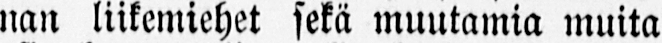nan liikemiehet sekä muutamia muita
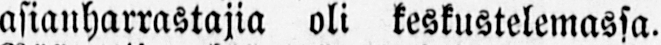asianharrastajia oli keskustelemassa.
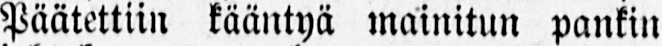Päätettiin kääntyä mainitun pankin
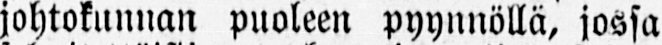johtokunnan puoleen pyynnöllä, jossa
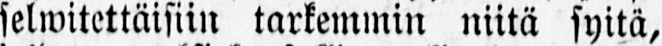selwitettäisiin tarkemmin niitä syitä,
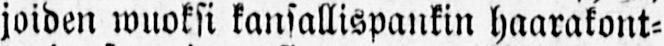joiden wuoksi kansallispankin haarakont-
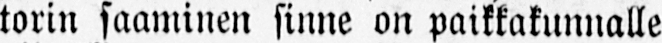torin saaminen sinne on paikkakunnalle
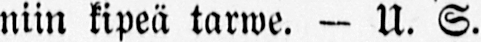niin kipeä tarwe. — U. S.
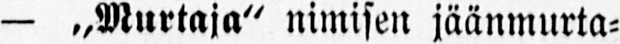— ˶Murtaja" nimisen jäänmurta-
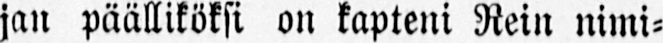jan päälliköksi on kapteni Rein nimi-
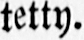tetty.
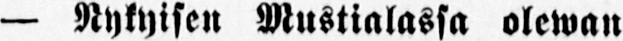— Nykyisen Mustialassa olewan
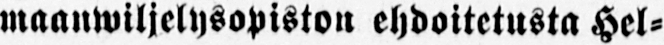maanwiljelysopiston ehdoitetusta Hel-
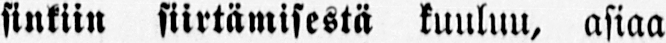sinkiin siirtämisestä kuuluu, asiaa
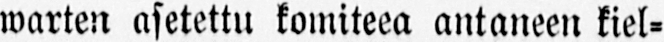warten asetettu komiteea antaneen kiel-
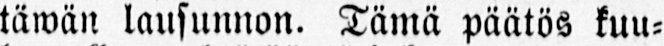täwän lausunnon. Tämä päätös kuu-
